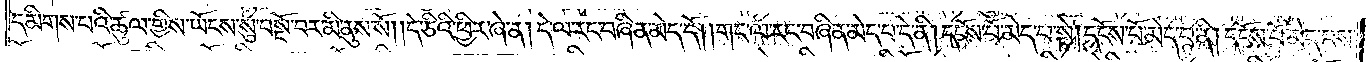དམིགས་པའི་ཚུལ་གྱིས་ཡོངས་སུ་བསྔོ་བར་མི་ནུས་སོ། །དེ་ཅིའི་ཕྱིར་ཞེ་ན། དེ་ལ་རང་བཞིན་མེད་དོ། །གང་ལ་རང་བཞིན་མེད་པ་དེ་ནི། དངོས་པོ་མེད་པ་སྟེ། དངོས་པོ་མེད་པ་ནི། དངོས་པོ་མེད་པས་
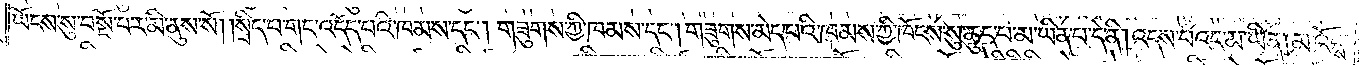ཡོངས་སུ་བསྔོ་བར་མི་ནུས་སོ། །སྲིད་པ་གང་འདོད་པའི་ཁམས་དང༌། གཟུགས་ཀྱི་ཁམས་དང༌། གཟུགས་མེད་པའི་ཁམས་ཀྱི་ཁོངས་སུ་ཆུད་པ་མ་ཡིན་པ་དེ་ནི། འདས་པའང་མ་ཡིན། མ་འོངས་
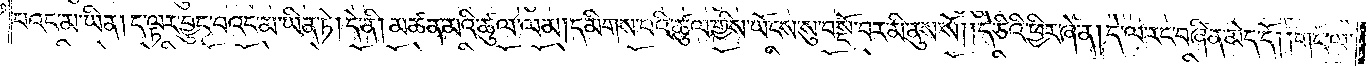པའང་མ་ཡིན། ད་ལྟར་བྱུང་བའང་མ་ཡིན་ཏེ། དེ་ནི། མཚན་མའི་ཚུལ་ལམ། དམིགས་པའི་ཚུལ་གྱིས་ཡོངས་སུ་བསྔོ་བར་མི་ནུས་སོ། །དེ་ཅིའི་ཕྱིར་ཞེ་ན། དེ་ལ་རང་བཞིན་མེད་དོ། །གང་ལ་
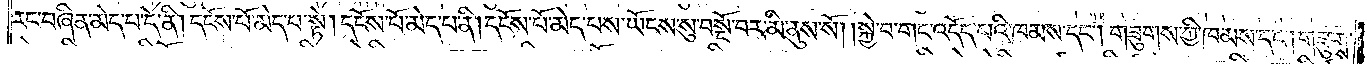རང་བཞིན་མེད་པ་དེ་ནི། དངོས་པོ་མེད་པ་སྟེ། དངོས་པོ་མེད་པ་ནི། དངོས་པོ་མེད་པས་ཡོངས་སུ་བསྔོ་བར་མི་ནུས་སོ། །སྐྱེ་བ་གང་འདོད་པའི་ཁམས་དང༌། གཟུགས་ཀྱི་ཁམས་དང༌། གཟུགས་
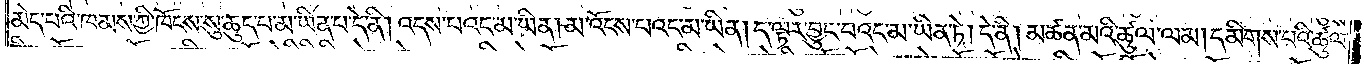མེད་པའི་ཁམས་ཀྱི་ཁོངས་སུ་ཆུད་པ་མ་ཡིན་པ་དེ་ནི། འདས་པའང་མ་ཡིན། མ་འོངས་པའང་མ་ཡིན། ད་ལྟར་བྱུང་བའང་མ་ཡིན་ཏེ། དེ་ནི། མཚན་མའི་ཚུལ་ལམ། དམིགས་པའི་ཚུལ་
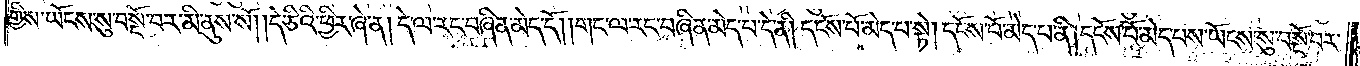གྱིས་ཡོངས་སུ་བསྔོ་བར་མི་ནུས་སོ། །དེ་ཅིའི་ཕྱིར་ཞེ་ན། དེ་ལ་རང་བཞིན་མེད་དོ། །གང་ལ་རང་བཞིན་མེད་པ་དེ་ནི། དངོས་པོ་མེད་པ་སྟེ། དངོས་པོ་མེད་པ་ནི། དངོས་པོ་མེད་པས་ཡོངས་སུ་བསྔོ་བར་
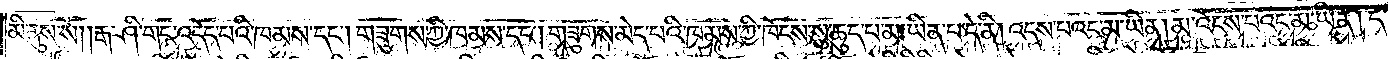མི་ནུས་སོ། །རྒ་ཤི་གང་འདོད་པའི་ཁམས་དང༌། གཟུགས་ཀྱི་ཁམས་དང༌། གཟུགས་མེད་པའི་ཁམས་ཀྱི་ཁོངས་སུ་ཆུད་པ་མ་ཡིན་པ་དེ་ནི། འདས་པའང་མ་ཡིན། མ་འོངས་པའང་མ་ཡིན། ད་
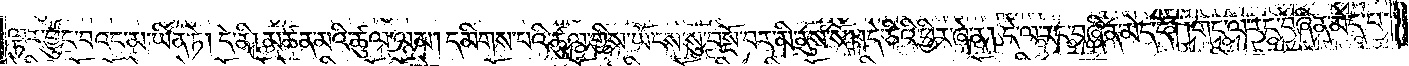ལྟར་བྱུང་བའང་མ་ཡིན་ཏེ། དེ་ནི། མཚན་མའི་ཚུལ་ལམ། དམིགས་པའི་ཚུལ་གྱིས་ཡོངས་སུ་བསྔོ་བར་མི་ནུས་སོ། །དེ་ཅིའི་ཕྱིར་ཞེ་ན། དེ་ལ་རང་བཞིན་མེད་དོ། །གང་ལ་རང་བཞིན་མེད་པ་
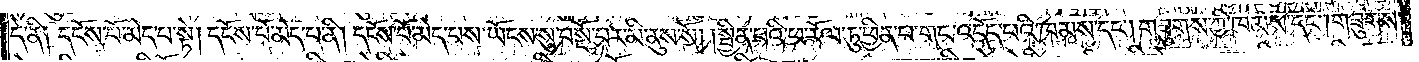དེ་ནི༑ དངོས་པོ་མེད་པ་སྟེ། དངོས་པོ་མེད་པ་ནི། དངོས་པོ་མེད་པས་ཡོངས་སུ་བསྔོ་བར་མི་ནུས་སོ། །སྦྱིན་པའི་ཕ་རོལ་ཏུ་ཕྱིན་པ་གང་འདོད་པའི་ཁམས་དང༌། གཟུགས་ཀྱི་ཁམས་དང༌། གཟུགས་
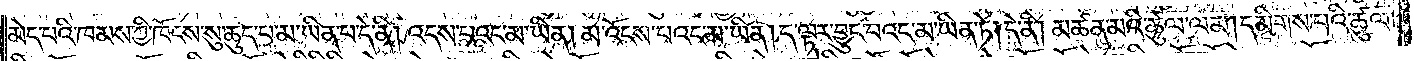མེད་པའི་ཁམས་ཀྱི་ཁོངས་སུ་ཆུད་པ་མ་ཡིན་པ་དེ་ནི། འདས་པའང་མ་ཡིན། མ་འོངས་པའང་མ་ཡིན། ད་ལྟར་བྱུང་བའང་མ་ཡིན་ཏེ། དེ་ནི། མཚན་མའི་ཚུལ་ལམ། དམིགས་པའི་ཚུལ་
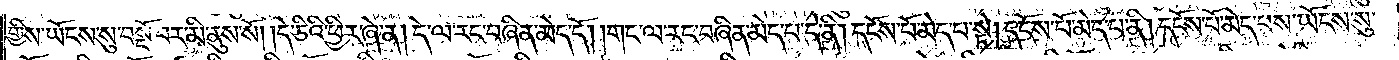གྱིས་ཡོངས་སུ་བསྔོ་བར་མི་ནུས་སོ། །དེ་ཅིའི་ཕྱིར་ཞེ་ན། དེ་ལ་རང་བཞིན་མེད་དོ། །གང་ལ་རང་བཞིན་མེད་པ་དེ་ནི། དངོས་པོ་མེད་པ་སྟེ། དངོས་པོ་མེད་པ་ནི། དངོས་པོ་མེད་པས་ཡོངས་སུ་
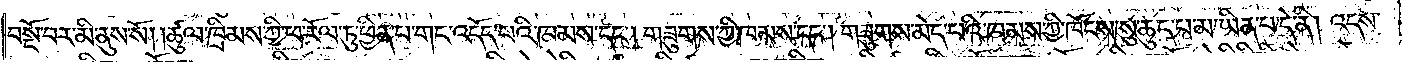བསྔོ་བར་མི་ནུས་སོ། །ཚུལ་ཁྲིམས་ཀྱི་ཕ་རོལ་ཏུ་ཕྱིན་པ་གང་འདོད་པའི་ཁམས་དང༌། གཟུགས་ཀྱི་ཁམས་དང༌། གཟུགས་མེད་པའི་ཁམས་ཀྱི་ཁོངས་སུ་ཆུད་པ་མ་ཡིན་པ་དེ་ནི། འདས་
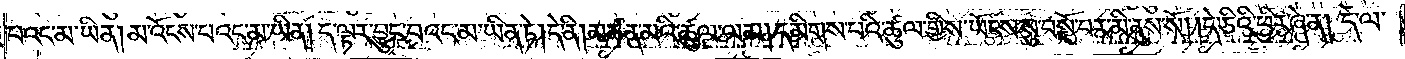པའང་མ་ཡིན། མ་འོངས་པའང་མ་ཡིན། ད་ལྟར་བྱུང་བའང་མ་ཡིན་ཏེ། དེ་ནི། མཚན་མའི་ཚུལ་ལམ། དམིགས་པའི་ཚུལ་གྱིས་ཡོངས་སུ་བསྔོ་བར་མི་ནུས་སོ། །དེ་ཅིའི་ཕྱིར་ཞེ་ན། དེ་ལ་
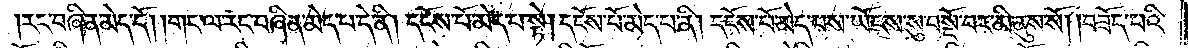རང་བཞིན་མེད་དོ། །གང་ལ་རང་བཞིན་མེད་པ་དེ་ནི། དངོས་པོ་མེད་པ་སྟེ། དངོས་པོ་མེད་པ་ནི། དངོས་པོ་མེད་པས་ཡོངས་སུ་བསྔོ་བར་མི་ནུས་སོ། །བཟོད་པའི་
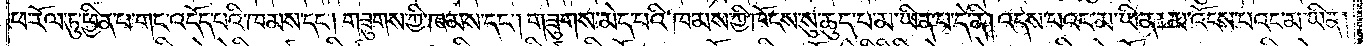ཕ་རོལ་ཏུ་ཕྱིན་པ་གང་འདོད་པའི་ཁམས་དང༌། གཟུགས་ཀྱི་ཁམས་དང༌། གཟུགས་མེད་པའི་ཁམས་ཀྱི་ཁོངས་སུ་ཆུད་པ་མ་ཡིན་པ་དེ་ནི། འདས་པའང་མ་ཡིན། མ་འོངས་པའང་མ་ཡིན།
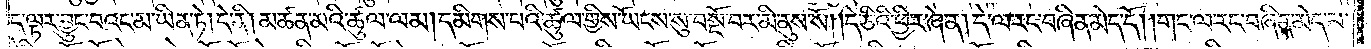ད་ལྟར་བྱུང་བའང་མ་ཡིན་ཏེ། དེ་ནི། མཚན་མའི་ཚུལ་ལམ། དམིགས་པའི་ཚུལ་གྱིས་ཡོངས་སུ་བསྔོ་བར་མི་ནུས་སོ། །དེ་ཅིའི་ཕྱིར་ཞེ་ན། དེ་ལ་རང་བཞིན་མེད་དོ། །གང་ལ་རང་བཞིན་མེད་པ་
